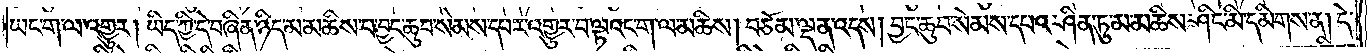ཡང་ག་ལ་འགྱུར། ཡིད་ཀྱི་དེ་བཞིན་ཉིད་མ་མཆིས་པ་བྱང་ཆུབ་སེམས་དཔར་འགྱུར་བ་ལྟའང་ག་ལ་མཆིས། བཅོམ་ལྡན་འདས། བྱང་ཆུབ་སེམས་དཔའ་ཤིན་ཏུ་མ་མཆིས་ཤིང་མི་དམིགས་ན། དེ་
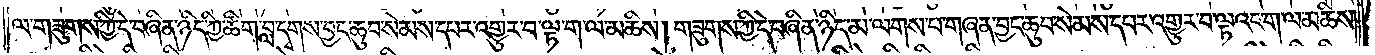ལ་གཟུགས་ཀྱི་དེ་བཞིན་ཉིད་ཀྱི་ཚིག་བླ་དྭགས་བྱང་ཆུབ་སེམས་དཔར་འགྱུར་བ་ལྟ་ག་ལ་མཆིས། གཟུགས་ཀྱི་དེ་བཞིན་ཉིད་མ་ལགས་པ་གཞན་བྱང་ཆུབ་སེམས་དཔར་འགྱུར་བ་ལྟའང་ག་ལ་མཆིས་
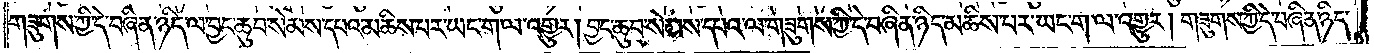གཟུགས་ཀྱི་དེ་བཞིན་ཉིད་ལ་བྱང་ཆུབ་སེམས་དཔའ་མཆིས་པར་ཡང་ག་ལ་འགྱུར། བྱང་ཆུབ་སེམས་དཔའ་ལ་གཟུགས་ཀྱི་དེ་བཞིན་ཉིད་མཆིས་པར་ཡང་ག་ལ་འགྱུར། གཟུགས་ཀྱི་དེ་བཞིན་ཉིད་
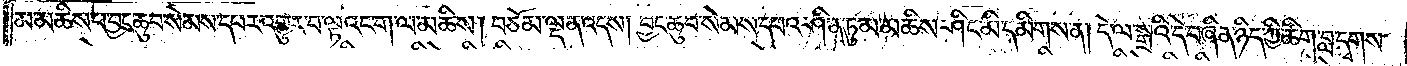མ་མཆིས་པ་བྱང་ཆུབ་སེམས་དཔར་འགྱུར་བ་ལྟའང་ག་ལ་མཆིས། བཅོམ་ལྡན་འདས། བྱང་ཆུབ་སེམས་དཔའ་ཤིན་ཏུ་མ་མཆིས་ཤིང་མི་དམིགས་ན། དེ་ལ་སྒྲའི་དེ་བཞིན་ཉིད་ཀྱི་ཚིག་བླ་དྭགས་
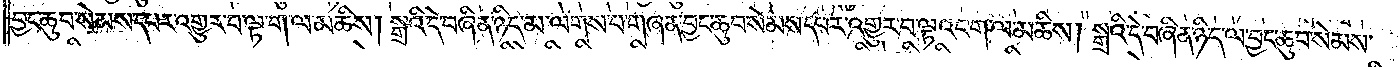བྱང་ཆུབ་སེམས་དཔར་འགྱུར་བ་ལྟ་ག་ལ་མཆིས། སྒྲའི་དེ་བཞིན་ཉིད་མ་ལགས་པ་གཞན་བྱང་ཆུབ་སེམས་དཔར་འགྱུར་བ་ལྟའང་ག་ལ་མཆིས། སྒྲའི་དེ་བཞིན་ཉིད་ལ་བྱང་ཆུབ་སེམས་
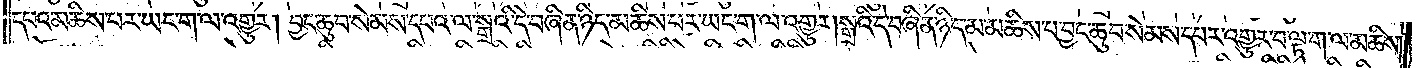དཔའ་མཆིས་པར་ཡང་ག་ལ་འགྱུར། བྱང་ཆུབ་སེམས་དཔའ་ལ་སྒྲའི་དེ་བཞིན་ཉིད་མཆིས་པར་ཡང་ག་ལ་འགྱུར། སྒྲའི་དེ་བཞིན་ཉིད་མ་མཆིས་པ་བྱང་ཆུབ་སེམས་དཔར་འགྱུར་བ་ལྟ་ག་ལ་མཆིས་
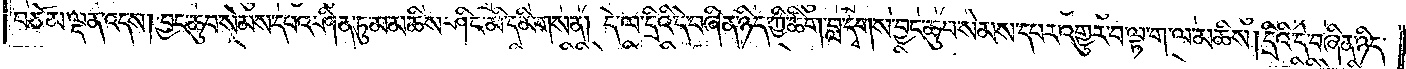བཅོམ་ལྡན་འདས། བྱང་ཆུབ་སེམས་དཔའ་ཤིན་ཏུ་མ་མཆིས་ཤིང་མི་དམིགས་ན། དེ་ལ་དྲིའི་དེ་བཞིན་ཉིད་ཀྱི་ཚིག་བླ་དྭགས་བྱང་ཆུབ་སེམས་དཔར་འགྱུར་བ་ལྟ་ག་ལ་མཆིས། དྲིའི་དེ་བཞིན་ཉིད་
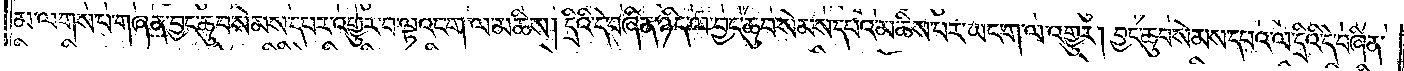མ་ལགས་པ་གཞན་བྱང་ཆུབ་སེམས་དཔར་འགྱུར་བ་ལྟའང་ག་ལ་མཆིས། དྲིའི་དེ་བཞིན་ཉིད་ལ་བྱང་ཆུབ་སེམས་དཔའ་མཆིས་པར་ཡང་ག་ལ་འགྱུར། བྱང་ཆུབ་སེམས་དཔའ་ལ་དྲིའི་དེ་བཞིན་
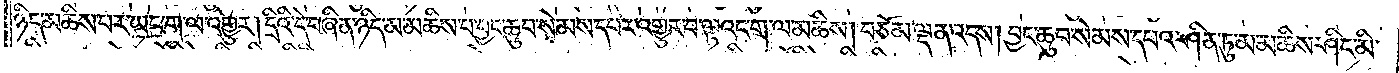ཉིད་མཆིས་པར་ཡང་ག་ལ་འགྱུར། དྲིའི་དེ་བཞིན་ཉིད་མ་མཆིས་པ་བྱང་ཆུབ་སེམས་དཔར་འགྱུར་བ་ལྟའང་ག་ལ་མཆིས། བཅོམ་ལྡན་འདས། བྱང་ཆུབ་སེམས་དཔའ་ཤིན་ཏུ་མ་མཆིས་ཤིང་མི་
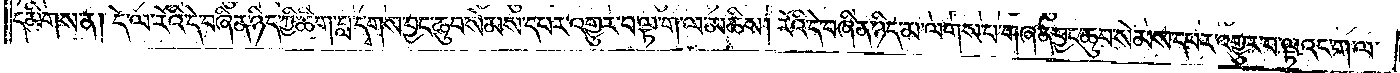དམིགས་ན། དེ་ལ་རོའི་དེ་བཞིན་ཉིད་ཀྱི་ཚིག་བླ་དྭགས་བྱང་ཆུབ་སེམས་དཔར་འགྱུར་བ་ལྟ་ག་ལ་མཆིས། རོའི་དེ་བཞིན་ཉིད་མ་ལགས་པ་གཞན་བྱང་ཆུབ་སེམས་དཔར་འགྱུར་བ་ལྟའང་ག་ལ་
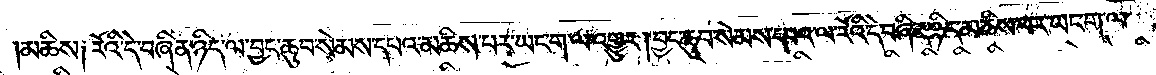མཆིས༑ རོའི་དེ་བཞིན་ཉིད་ལ་བྱང་ཆུབ་སེམས་དཔའ་མཆིས་པར་ཡང་ག་ལ་འགྱུར་།བྱང་ཆུབ་སེམས་དཔའ་ལ་རོའི་དེ་བཞིན་ཉིད་མཆིས་པར་ཡང་ག་ལ་
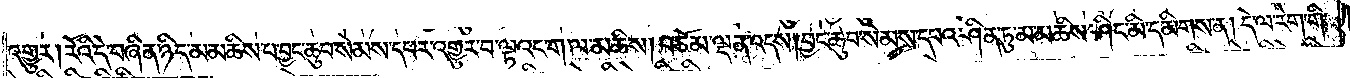འགྱུར། རོའི་དེ་བཞིན་ཉིད་མ་མཆིས་པ་བྱང་ཆུབ་སེམས་དཔར་འགྱུར་བ་ལྟའང་ག་ལ་མཆིས། བཅོམ་ལྡན་འདས། བྱང་ཆུབ་སེམས་དཔའ་ཤིན་ཏུ་མ་མཆིས་ཤིང་མི་དམིགས་ན། དེ་ལ་རེག་གི་
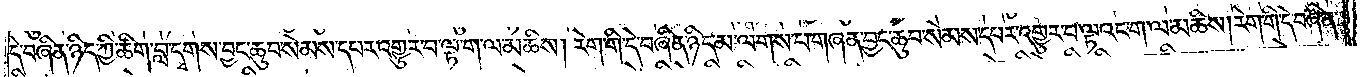དེ་བཞིན་ཉིད་ཀྱི་ཚིག་བླ་དྭགས་བྱང་ཆུབ་སེམས་དཔར་འགྱུར་བ་ལྟ་ག་ལ་མཆིས། རེག་གི་དེ་བཞིན་ཉིད་མ་ལགས་པ་གཞན་བྱང་ཆུབ་སེམས་དཔར་འགྱུར་བ་ལྟའང་ག་ལ་མཆིས། རེག་གི་དེ་བཞིན་
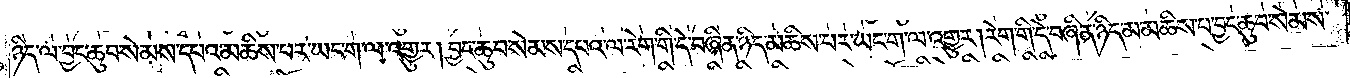ཉིད་ལ་བྱང་ཆུབ་སེམས་དཔའ་མཆིས་པར་ཡང་ག་ལ་འགྱུར། བྱང་ཆུབ་སེམས་དཔའ་ལ་རེག་གི་དེ་བཞིན་ཉིད་མཆིས་པར་ཡང་ག་ལ་འགྱུར། རེག་གི་དེ་བཞིན་ཉིད་མ་མཆིས་པ་བྱང་ཆུབ་སེམས་
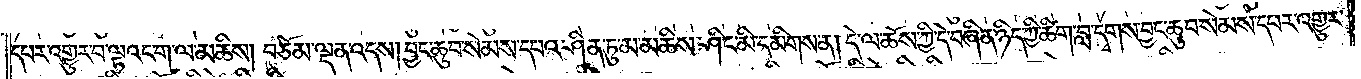དཔར་འགྱུར་བ་ལྟའང་ག་ལ་མཆིས། བཅོམ་ལྡན་འདས། བྱང་ཆུབ་སེམས་དཔའ་ཤིན་ཏུ་མ་མཆིས་ཤིང་མི་དམིགས་ན། དེ་ལ་ཆོས་ཀྱི་དེ་བཞིན་ཉིད་ཀྱི་ཚིག་བླ་དྭགས་བྱང་ཆུབ་སེམས་དཔར་འགྱུར་
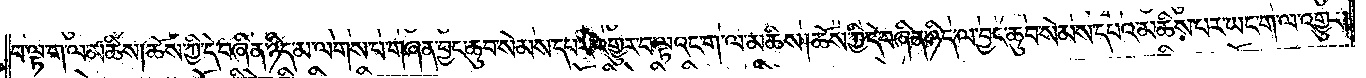བ་ལྟ་ག་ལ་མཆིས། ཆོས་ཀྱི་དེ་བཞིན་ཉིད་མ་ལགས་པ་གཞན་བྱང་ཆུབ་སེམས་དཔར་འགྱུར་བ་ལྟའང་ག་ལ་མཆིས། ཆོས་ཀྱི་དེ་བཞིན་ཉིད་ལ་བྱང་ཆུབ་སེམས་དཔའ་མཆིས་པར་ཡང་ག་ལ་འགྱུར།
